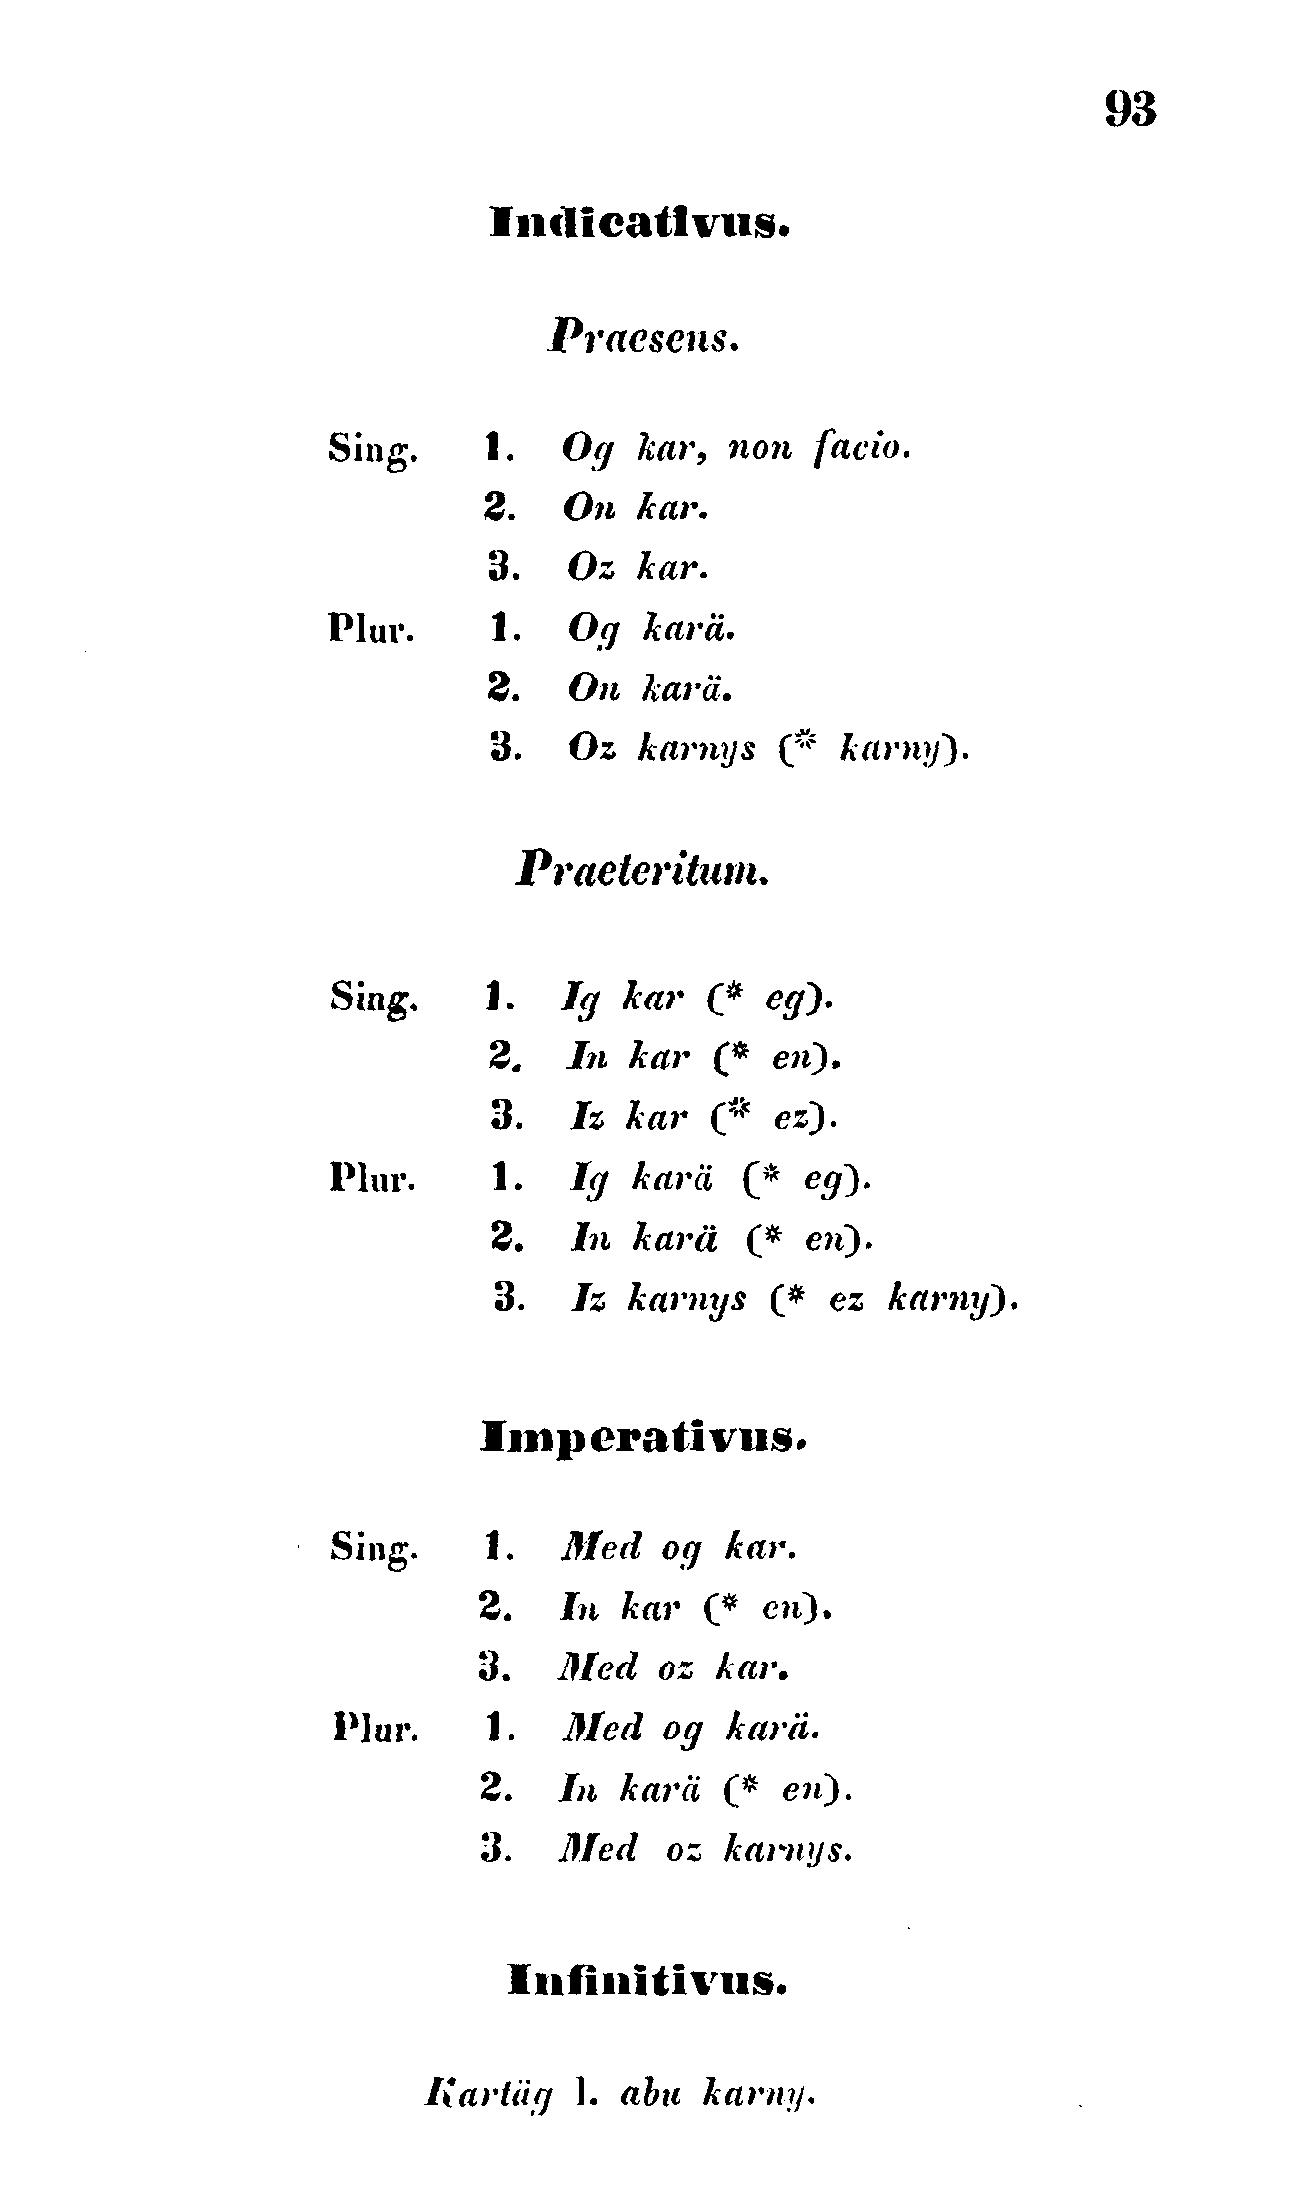93
Indicativus.
Praesens.
Sing.
1.
Og kar, non facio.
2.
On kar.
3.
Oz kar.
Plur.
1.
Og karä.
2.
On karä.
3.
Oz karnys (*karny).
Praeteritum.
Sing.
1.
Ig kar (* eg).
2.
In kar (* en).
3.
I kar (* ez).
Plur.
1.
lg karä (* eg).
2.
3.
ln karä (* en).
Iz karnys (* ez karny).
Imperativus.
Sing.
1.
Med og kar.
2.
In kar (* en).
3.
Med oz kar.
Plur.
1
Med og karä.
2.
In karä (*en).
3.
Med oz karnys.
Infinitivus.
Kartäg l. abu karny.
